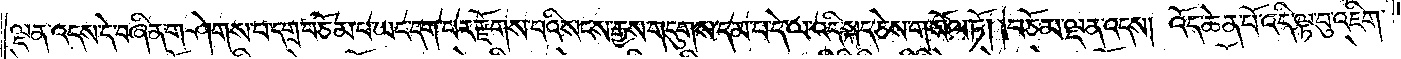ལྡན་འདས་དེ་བཞིན་གཤེགས་པ་དགྲ་བཅོམ་པ་ཡང་དག་པར་རྫོགས་པའི་སངས་རྒྱས་གདུགས་དམ་པ་དེ་ལ་འདི་སྐད་ཅེས་གསོལ་ཏོ། །བཅོམ་ལྡན་འདས། འོད་ཆེན་པོ་འདི་ལྟ་བུ་འཇིག་
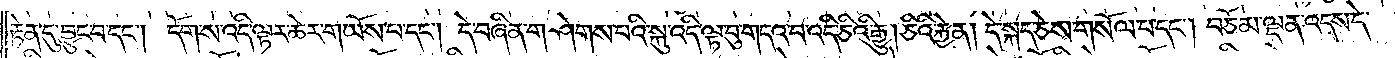རྟེན་དུ་བྱུང་བ་དང༌། དོག་ས་འདི་ལྟར་ཆེར་གཡོས་པ་དང༌། དེ་བཞིན་གཤེགས་པའི་སྐུ་འདི་ལྟ་བུ་གདའ་བ་འདི་ཅིའི་རྒྱུ། ཅིའི་རྐྱེན། དེ་སྐད་ཅེས་གསོལ་པ་དང༌། བཅོམ་ལྡན་འདས་དེ་
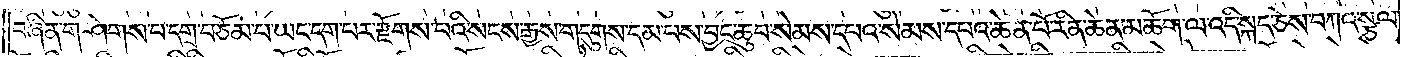བཞིན་གཤེགས་པ་དགྲ་བཅོམ་པ་ཡང་དག་པར་རྫོགས་པའི་སངས་རྒྱས་གདུགས་དམ་པས་བྱང་ཆུབ་སེམས་དཔའ་སེམས་དཔའ་ཆེན་པོ་རིན་ཆེན་མཆོག་ལ་འདི་སྐད་ཅེས་བཀའ་སྩལ་
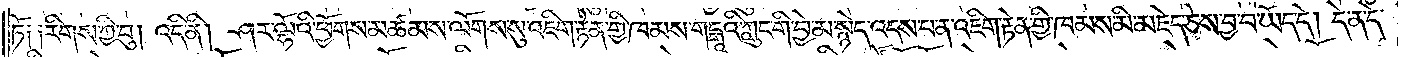ཏོ༑ ༑རིགས་ཀྱི་བུ། འདི་ནི། ཤར་ལྷོའི་ཕྱོགས་མཚམས་ལོགས་སུ་འཇིག་རྟེན་གྱི་ཁམས་གངྒཱའི་ཀླུང་གི་བྱེ་མ་སྙེད་འདས་པ་ན་འཇིག་རྟེན་གྱི་ཁམས་མི་མཇེད་ཅེས་བྱ་བ་ཡོད་དེ། དེ་ན་དེ་
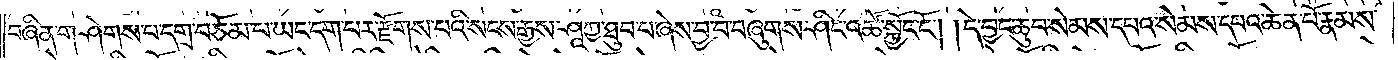བཞིན་གཤེགས་པ་དགྲ་བཅོམ་པ་ཡང་དག་པར་རྫོགས་པའི་སངས་རྒྱས་ཤཱཀྱ་ཐུབ་པ་ཞེས་བྱ་བ་བཞུགས་ཤིང་འཚོ་སྐྱོང་ངོ༌། །དེ་བྱང་ཆུབ་སེམས་དཔའ་སེམས་དཔའ་ཆེན་པོ་རྣམས་
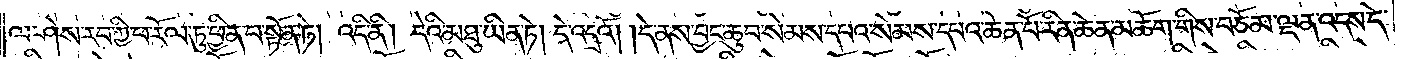ལ་ཤེས་རབ་ཀྱི་ཕ་རོལ་ཏུ་ཕྱིན་པ་སྟོན་ཏེ། འདི་ནི། དེའི་མཐུ་ཡིན་ཏེ། དེ་འདྲའོ། །དེ་ནས་བྱང་ཆུབ་སེམས་དཔའ་སེམས་དཔའ་ཆེན་པོ་རིན་ཆེན་མཆོག་གིས་བཅོམ་ལྡན་འདས་དེ་
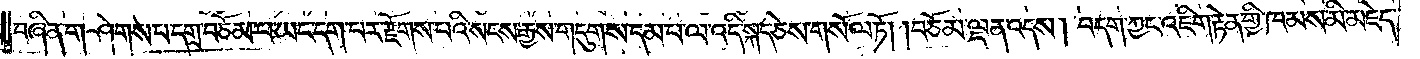བཞིན་གཤེགས་པ་དགྲ་བཅོམ་པ་ཡང་དག་པར་རྫོགས་པའི་སངས་རྒྱས་གདུགས་དམ་པ་ལ་འདི་སྐད་ཅེས་གསོལ་ཏོ། །བཅོམ་ལྡན་འདས། བདག་ཀྱང་འཇིག་རྟེན་གྱི་ཁམས་མི་མཇེད་
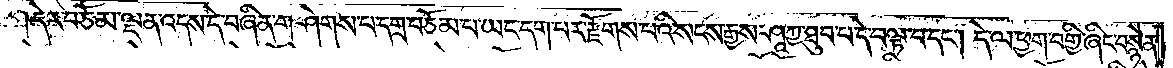དེར་བཅོམ་ལྡན་འདས་དེ་བཞིན་གཤེགས་པ་དགྲ་བཅོམ་པ་ཡང་དག་པར་རྫོགས་པའི་སངས་རྒྱས་ཤཱཀྱ་ཐུབ་པ་དེ་བལྟ་བ་དང༌། དེ་ལ་ཕྱག་བགྱི་ཞིང་བསྙེན་
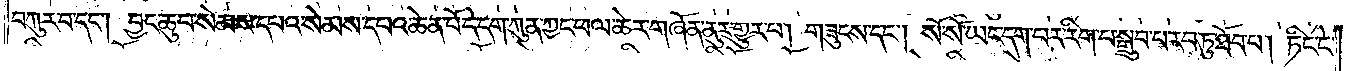བཀུར་བ་དང༌། བྱང་ཆུབ་སེམས་དཔའ་སེམས་དཔའ་ཆེན་པོ་དེ་དག་ཀུན་ཀྱང་ཕལ་ཆེར་གཞོན་ནུར་གྱུར་པ། གཟུངས་དང༌། སོ་སོ་ཡང་དག་པར་རིག་པ་སྒྲུབ་པ་རབ་ཏུ་ཐོབ་པ། ཏིང་ངེ་
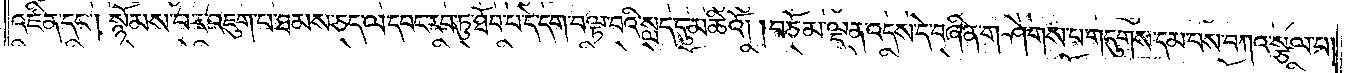འཛིན་དང༌། སྙོམས་པར་འཇུག་པ་ཐམས་ཅད་ལ་དབང་རབ་ཏུ་ཐོབ་པ་དེ་དག་བལྟ་བའི་སླད་དུ་མཆིའོ། །བཅོམ་ལྡན་འདས་དེ་བཞིན་གཤེགས་པ་གདུགས་དམ་པས་བཀའ་སྩལ་པ།
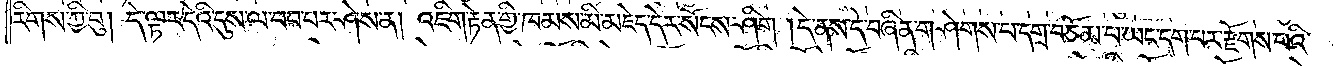རིགས་ཀྱི་བུ། དེ་ལྟར་དེའི་དུས་ལ་བབ་པར་ཤེས་ན། འཇིག་རྟེན་གྱི་ཁམས་མི་མཇེད་དེར་སོངས་ཤིག །དེ་ནས་དེ་བཞིན་གཤེགས་པ་དགྲ་བཅོམ་པ་ཡང་དག་པར་རྫོགས་པའི་
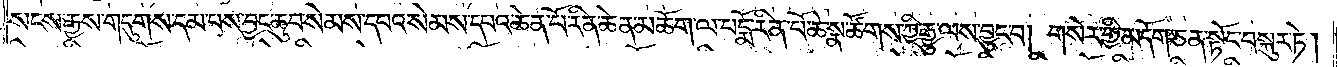སངས་རྒྱས་གདུགས་དམ་པས་བྱང་ཆུབ་སེམས་དཔའ་སེམས་དཔའ་ཆེན་པོ་རིན་ཆེན་མཆོག་ལ་པདྨོ་རིན་པོ་ཆེ་སྣ་ཚོགས་ཀྱི་རྒྱུ་ལས་བྱུང་བ། གསེར་གྱི་མདོག་ཅན་སྟོང་བསྐུར་ཏེ།
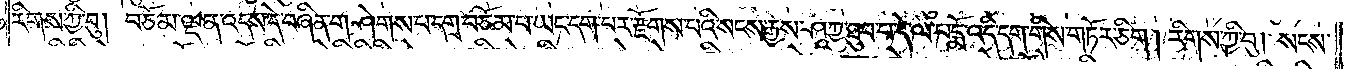རིགས་ཀྱི་བུ། བཅོམ་ལྡན་འདས་དེ་བཞིན་གཤེགས་པ་དགྲ་བཅོམ་པ་ཡང་དག་པར་རྫོགས་པའི་སངས་རྒྱས་ཤཱཀྱ་ཐུབ་པ་དེ་ལ་པདྨོ་འདི་དག་གིས་གཏོར་ཅིག། རིགས་ཀྱི་བུ། སངས་
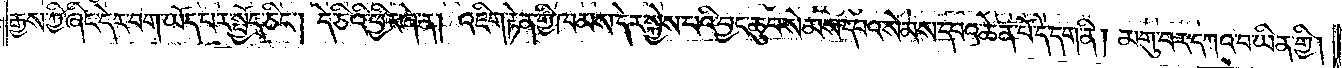རྒྱས་ཀྱི་ཞིང་དེར་བག་ཡོད་པར་སྤྱོད་ཅིང༌། དེ་ཅིའི་ཕྱིར་ཞེ་ན། འཇིག་རྟེན་གྱི་ཁམས་དེར་སྐྱེས་པའི་བྱང་ཆུབ་སེམས་དཔའ་སེམས་དཔའ་ཆེན་པོ་དེ་དག་ནི། མགུ་བར་དཀའ་བ་ཡིན་གྱི།
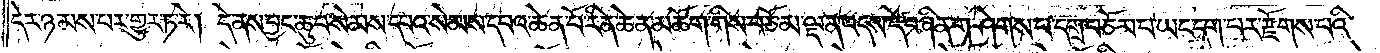དེར་ཉམས་པར་གྱུར་ཏ་རེ། དེ་ནས་བྱང་ཆུབ་སེམས་དཔའ་སེམས་དཔའ་ཆེན་པོ་རིན་ཆེན་མཆོག་གིས་བཅོམ་ལྡན་འདས་དེ་བཞིན་གཤེགས་པ་དགྲ་བཅོམ་པ་ཡང་དག་པར་རྫོགས་པའི་
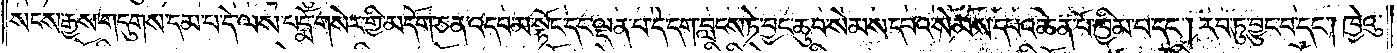སངས་རྒྱས་གདུགས་དམ་པ་དེ་ལས་པདྨོ་གསེར་གྱི་མདོག་ཅན་འདབ་མ་སྟོང་དང་ལྡན་པ་དེ་དག་བླངས་ཏེ་བྱང་ཆུབ་སེམས་དཔའ་སེམས་དཔའ་ཆེན་པོ་ཁྱིམ་པ་དང༌། རབ་ཏུ་བྱུང་བ་དང༌། ཁྱེའུ་
